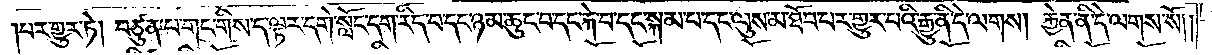པར་གྱུར་ཏེ། བཙུན་པ་གང་གིས་ད་ལྟར་དགེ་སློང་དག་རིད་བ་དང་ཉམ་ཆུང་བ་དང་རྐེ་བ་དང་སྐམ་པ་དང་ལུས་མ་ཐོབ་པར་གྱུར་པའི་རྒྱུ་ནི་དེ་ལགས། རྐྱེན་ནི་དེ་ལགས་སོ།
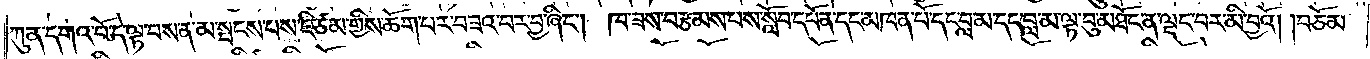ཀུན་དགའ་བོ་དེ་ལྟ་བས་ན་མ་སྤངས་པས་ཇི་ཙམ་གྱིས་ཆོག་པར་བཟའ་བར་བྱ་ཞིང༌། ཁ་ཟས་བརྩམས་པས་སློབ་དཔོན་དང་མཁན་པོ་དང་བླ་མ་དང་བླ་མ་ལྟ་བུ་མཐོང་ན་ལྡང་བར་མི་བྱའོ། །བཅོམ་
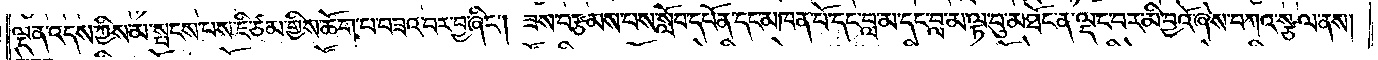ལྡན་འདས་ཀྱིས་མ་སྤངས་པས་ཇི་ཙམ་གྱིས་ཆོག་པ་བཟའ་བར་བྱ་ཞིང༌། ཟས་བརྩམས་པས་སློབ་དཔོན་དང་མཁན་པོ་དང་བླ་མ་དང་བླ་མ་ལྟ་བུ་མཐོང་ན་ལྡང་བར་མི་བྱའོ་ཞེས་བཀའ་སྩལ་ནས།
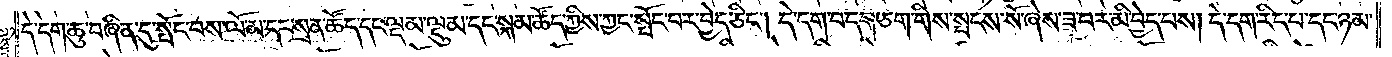དེ་དག་ཆུ་བཞིན་དུ་སྤོང་བས་ལོ་མ་དང་སྲན་ཚོད་དང་ལྡམ་ལྡུམ་དང་སྐམ་ཚོད་ཀྱིས་ཀྱང་སྤོང་བར་བྱེད་ཅིང༌། དེ་དག་བདག་ཅག་གིས་སྤངས་སོ་ཞེས་ཟ་བར་མི་བྱེད་པས། དེ་དག་རིད་པ་དང་ཉམ་
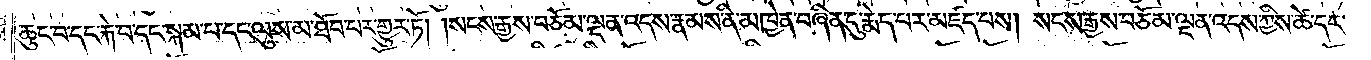ཆུང་བ་དང་རྐེ་བ་དང་སྐམ་པ་དང་ལུས་མ་ཐོབ་པར་གྱུར་ཏོ། །སངས་རྒྱས་བཅོམ་ལྡན་འདས་རྣམས་ནི་མཁྱེན་བཞིན་དུ་རྨེད་པར་མཛད་པས། སངས་རྒྱས་བཅོམ་ལྡན་འདས་ཀྱིས་ཚེ་དང་
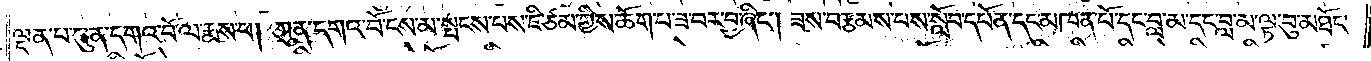ལྡན་པ་ཀུན་དགའ་བོ་ལ་རྨས་པ། ཀུན་དགའ་བོ་ངས་མ་སྤངས་པས་ཇི་ཙམ་གྱིས་ཆོག་པ་ཟ་བར་བྱ་ཞིང༌། ཟས་བརྩམས་པས་སློབ་དཔོན་དང་མཁན་པོ་དང་བླ་མ་དང་བླ་མ་ལྟ་བུ་མཐོང་
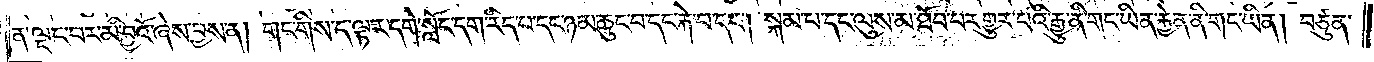ན་ལྡང་བར་མི་བྱའོ་ཞེས་བྱས་ན། གང་གིས་ད་ལྟར་དགེ་སློང་དག་རིད་པ་དང་ཉམ་ཆུང་བ་དང་རྐེ་བ་དང༌། སྐམ་པ་དང་ལུས་མ་ཐོབ་པར་གྱུར་པའི་རྒྱུ་ནི་གང་ཡིན་རྐྱེན་ནི་གང་ཡིན། བཙུན་
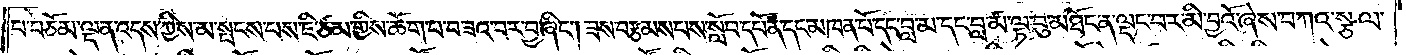པ་བཅོམ་ལྡན་འདས་ཀྱིས་མ་སྤངས་པས་ཇི་ཙམ་གྱིས་ཆོག་པ་བཟའ་བར་བྱ་ཞིང༌། ཟས་བརྩམས་པས་སློབ་དཔོན་དང་མཁན་པོ་དང་བླ་མ་དང་བླ་མ་ལྟ་བུ་མཐོང་ན་ལྡང་བར་མི་བྱའོ་ཞེས་བཀའ་སྩལ་
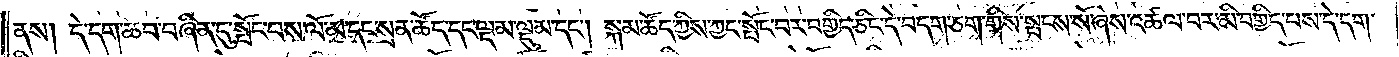ནས། དེ་དག་ཆབ་བཞིན་དུ་སྤོང་བས་ལོ་མ་དང་སྲན་ཚོད་དང་ལྡམ་ལྡུམ་དང༌། སྐམ་ཚོད་ཀྱིས་ཀྱང་སྤོང་བར་བགྱིད་ཅིང་དེ་བདག་ཅག་གིས་སྤངས་སོ་ཞེས་འཚལ་བར་མི་བགྱིད་པས་དེ་དག་
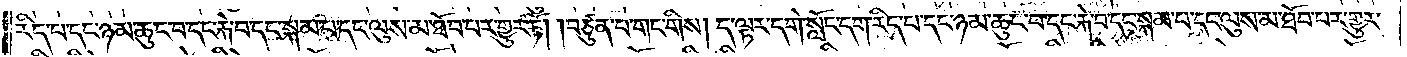རིད་པ་དང་ཉམ་ཆུང་བ་དང་རྐེ་བ་དང་སྐམ་པ་དང་ལུས་མ་ཐོབ་པར་གྱུར་ཏོ། །བཙུན་པ་གང་གིས། ད་ལྟར་དགེ་སློང་དག་རིད་པ་དང་ཉམ་ཆུང་བ་དང་རྐེ་བ་དང་སྐམ་པ་དང་ལུས་མ་ཐོབ་པར་གྱུར་
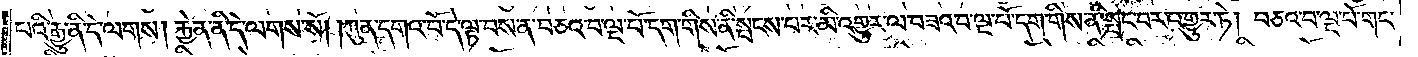བའི་རྒྱུ་ནི་དེ་ལགས། རྐྱེན་ནི་དེ་ལགས་སོ། །ཀུན་དགའ་བོ་དེ་ལྟ་བས་ན་བཅའ་བ་ལྔ་པོ་དག་གིས་ནི་སྤངས་པར་མི་འགྱུར་ལ་བཟའ་བ་ལྔ་པོ་དག་གིས་ནི་སྤང་བར་འགྱུར་ཏེ། བཅའ་བ་ལྔ་པོ་གང་
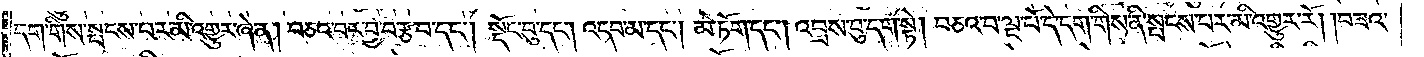དག་གིས་སྤངས་པར་མི་འགྱུར་ཞེ་ན། བཅའ་བར་བྱ་བ་རྩ་བ་དང༌། སྡོང་བུ་དང༌། འདབ་མ་དང༌། མེ་ཏོག་དང༌། འབྲས་བུ་དག་སྟེ། བཅའ་བ་ལྔ་པོ་དེ་དག་གིས་ནི་སྤངས་པར་མི་འགྱུར་རོ། །བཟའ་
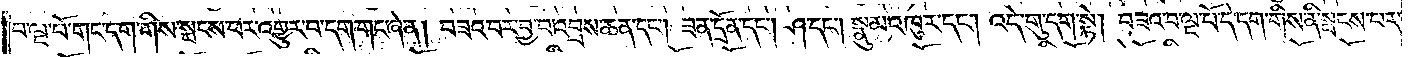བ་ལྔ་པོ་གང་དག་གིས་སྤངས་པར་འགྱུར་བ་དག་གང་ཞེ་ན། བཟའ་བར་བྱ་བ་འབྲས་ཆན་དང༌། ཟན་དྲོན་དང༌། ཤ་དང༌། སྣུམ་འཁུར་དང༌། འདེ་གུ་དག་སྟེ། བཟའ་བ་ལྔ་པོ་དེ་དག་གིས་ནི་སྤངས་པར་
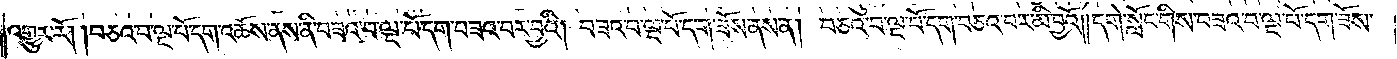འགྱུར་རོ། །བཅའ་བ་ལྔ་པོ་དག་འཆོས་ནས་ནི་བཟའ་བ་ལྔ་པོ་དག་བཟའ་བར་བྱའི། བཟའ་བ་ལྔ་པོ་དག་ཟོས་ནས་ན། བཅའ་བ་ལྔ་པོ་དག་བཅའ་བར་མི་བྱའོ། །དགེ་སློང་གིས་བཟའ་བ་ལྔ་པོ་དག་ཟོས་
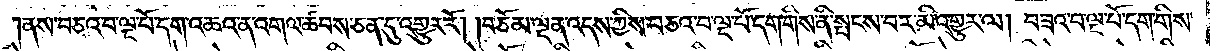ནས་བཅའ་བ་ལྔ་པོ་དག་འཆའ་ན་འགལ་ཚབས་ཅན་དུ་འགྱུར་རོ། །བཅོམ་ལྡན་འདས་ཀྱིས་བཅའ་བ་ལྔ་པོ་དག་གིས་ནི་སྤངས་བར་མི་འགྱུར་ལ། བཟའ་བ་ལྔ་པོ་དག་གིས་
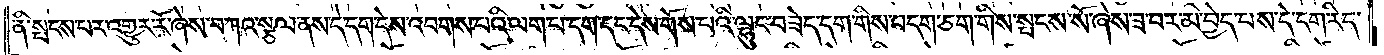ནི་སྤངས་པར་འགྱུར་རོ་ཞེས་བཀའ་སྩལ་ནས་དེ་དག་དེས་འབགས་པའི་ལག་པ་དག་དང་དེས་གོས་པའི་ལྷུང་བཟེད་དག་གིས་བདག་ཅག་གིས་སྤངས་སོ་ཞེས་ཟ་བར་མི་བྱེད་པས་དེ་དག་རིད་
